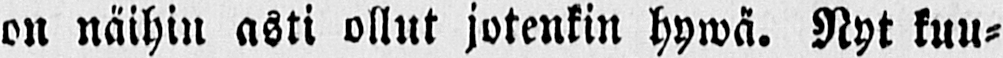on näihin asti ollut jotenkin hywä. Nyt kuu-
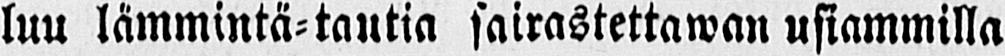luu lämmintä-tautia sairastettawan usiammilla
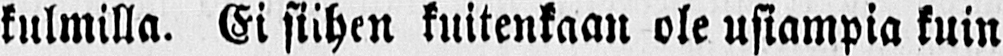kulmilla. Ei siihen kuitenkaan ole usiampia kuin
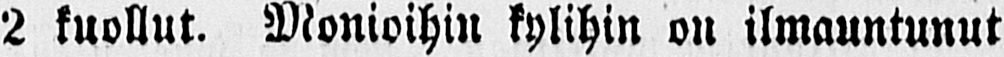2 kuollut. Monioihin kylihin on ilmauntunut
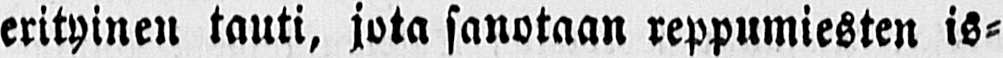erityinen tauti, jota sanotaan reppumiesten is-
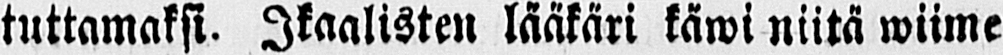tuttamaksi. Ikaalisten lääkäri käwi niitä wiime
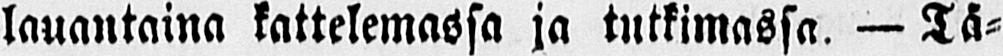lauantaina kattelemassa ja tutkimassa. — Tä-
